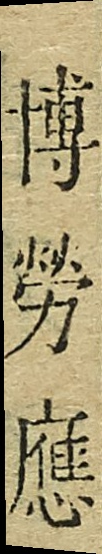博勞應
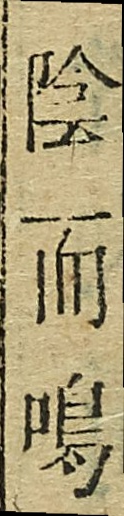陰而鳴
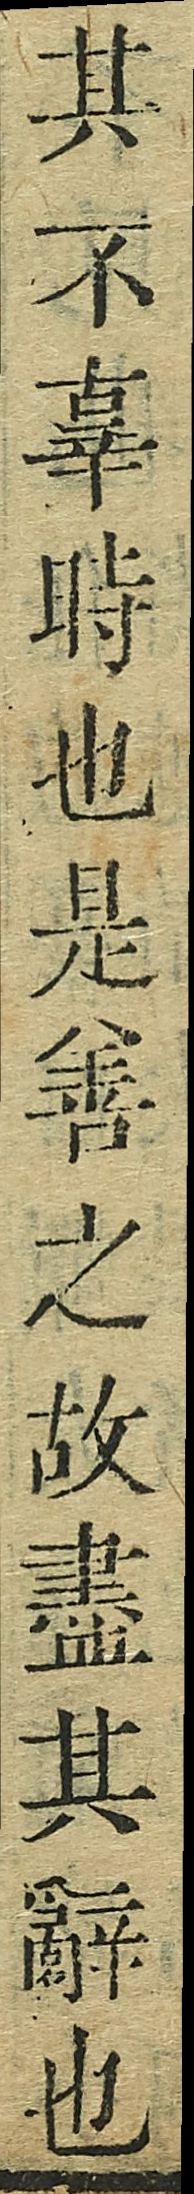其不辜時也是善之故盡其辭也
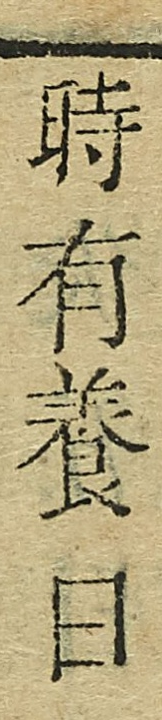時有養日
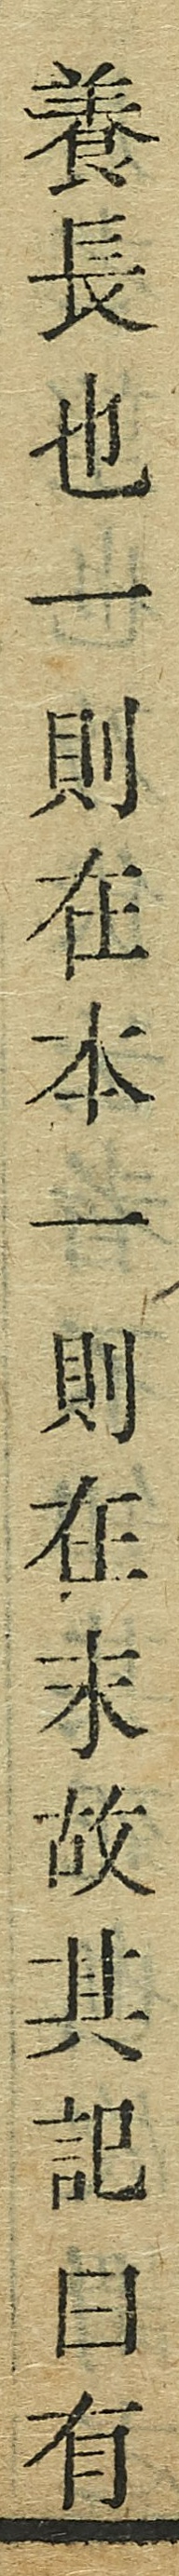養長也一則在本一則在末故其記曰有
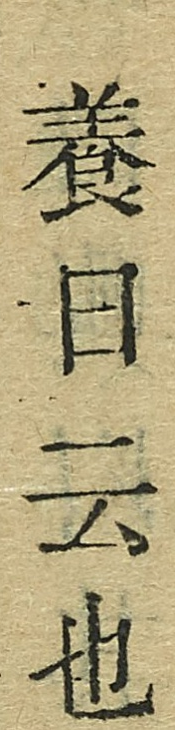養日云也
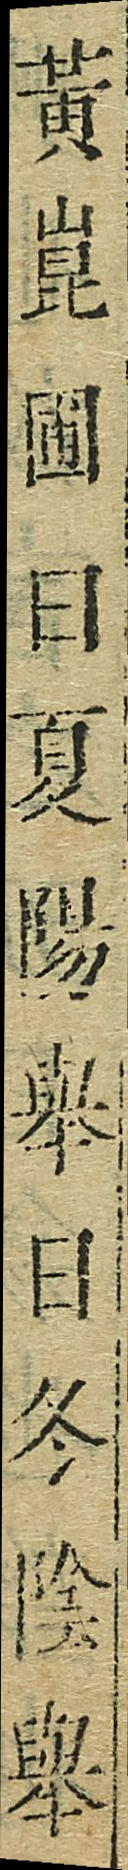黃昆圃曰夏陽舉曰冬陰舉
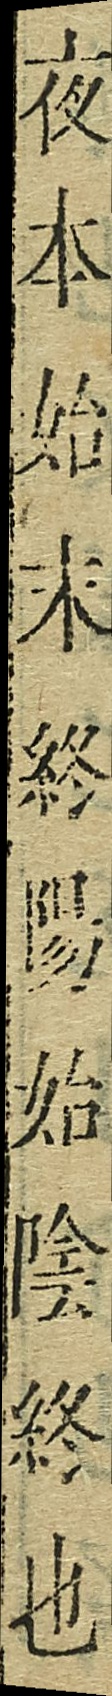夜本始末終陽始陰終也
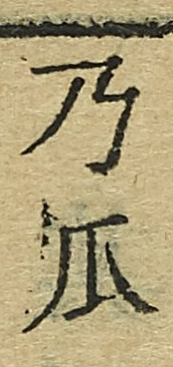乃瓜
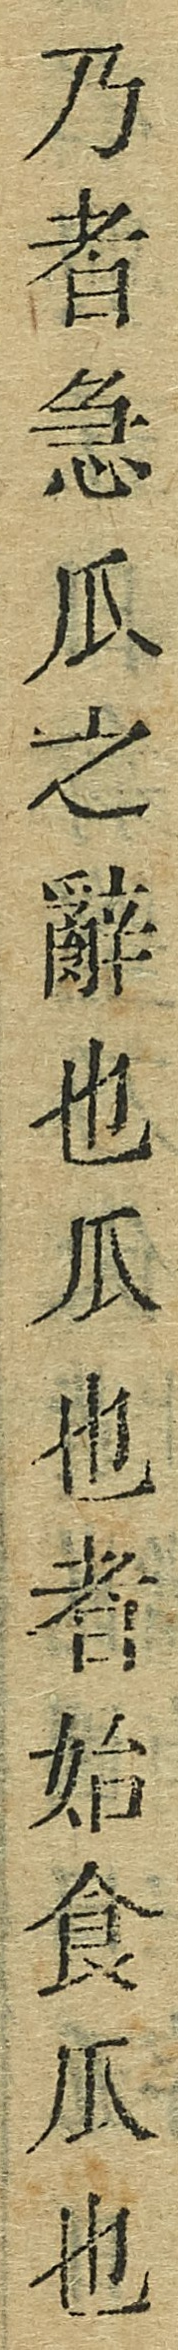乃者急瓜之辭也瓜也者始食瓜也
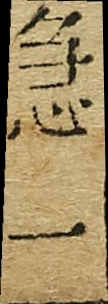急一
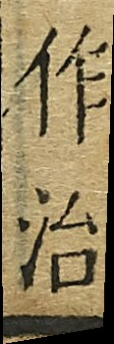作治
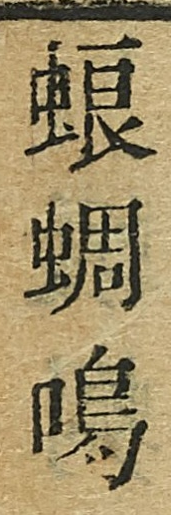蜋蜩鳴
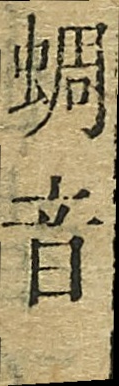蜩音
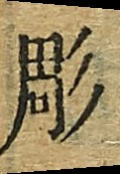彫
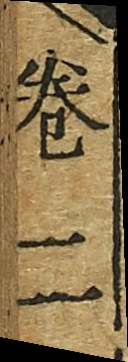卷二
